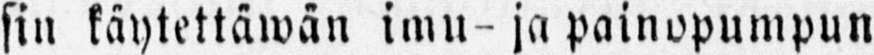sin käytettäwän imu- ja painopumpun
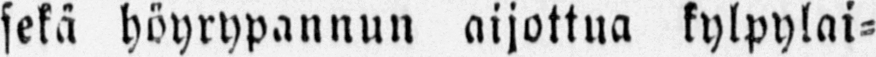sekä höyrypannun aijottua kylpylai-
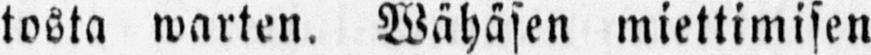tosta warten. Wähäsen miettimisen
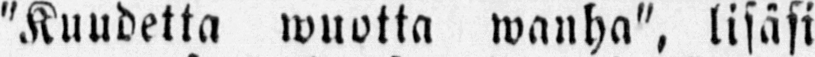"Kuudetta muutta wanha", lisäsi
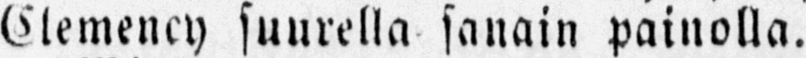Elemency suurella sanain painolla.
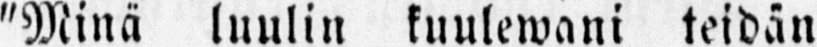"Minä luulin kuulewani teidän
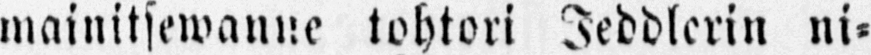mainitsewanne tohtori Jeddlerin ni-
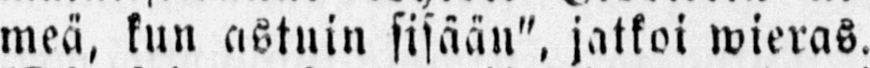meä, kun astuin sisään", jatkoi wieras.
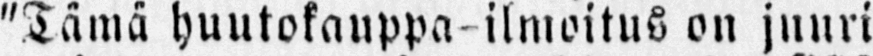"Tämä huutokauppa-ilmoitus on juuri
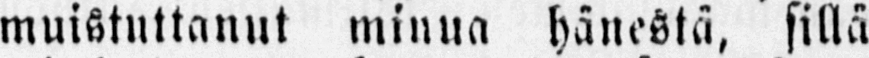muistuttanut minua hänestä, sillä
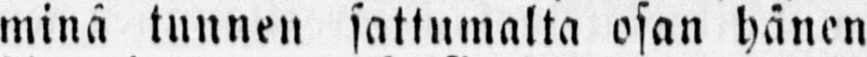minä tunnen sattumalta osan hänen
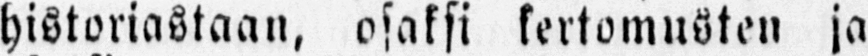historiastaan, osaksi kertomusten ja
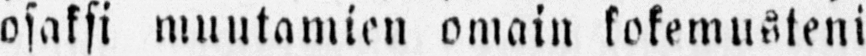osaksi muutamien omain kokemusteni
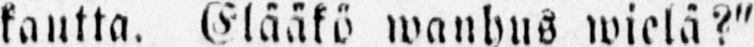kautta. Elääkö wanhus wielä?"
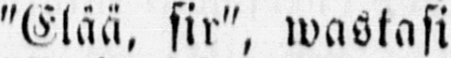"Elää, sir", wastasi Clemenecy.
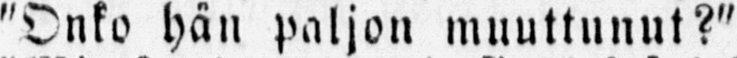"Onko hän paljon muuttunut?"
